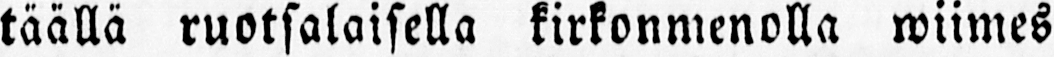täällä ruotsalaisella kirkonmenolla wiimes
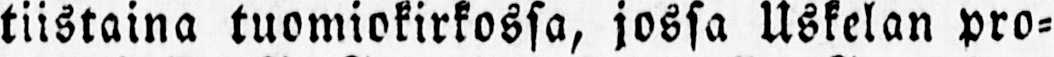tiistaina tuomiokirkossa, jossa Uskelan pro-
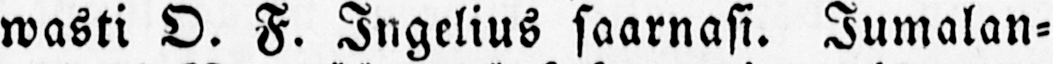wasti O. F. Ingelius saarnasi. Jumalan-
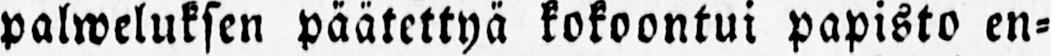palweluksen päätettyä kokoontui papisto en-
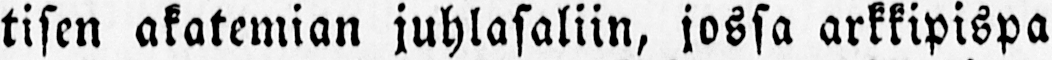tisen akatemian juhlasaliin, jossa arkkipispa
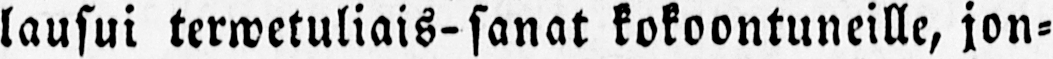lausui terwetuliais-sanat kokoontuneille, jon-
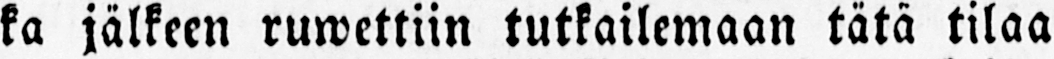ka jälkeen ruwettiin tutkailemaan tätä tilaa
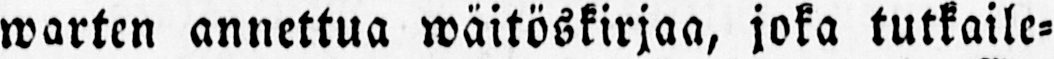warten annettua wäitöskirjaa, joka tutkaile-
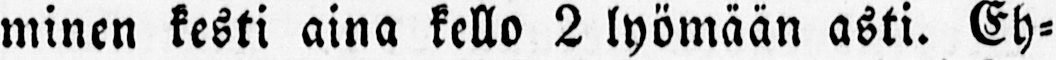minen kesti aina kello 2 lyömään asti. Eh-
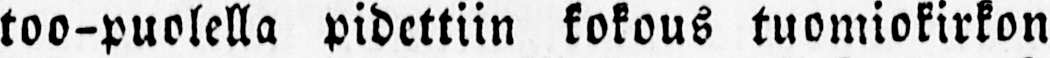too-puolella pidettiin kokous tuomiokirkon
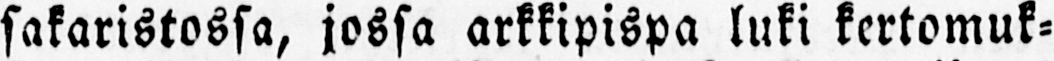sakaristossa, jossa arkkipispa luki kertomuk-
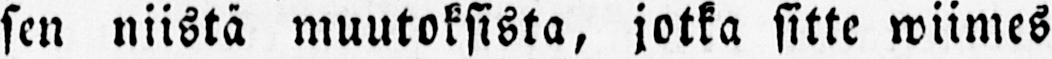sen niistä muutoksista, jotka sitte wiimes
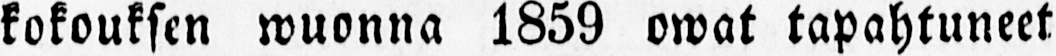kokouksen wuonna 1859 owat tapahtuneet
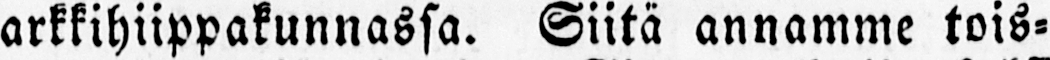arkkihiippakunnassa. Siitä annamme tois-
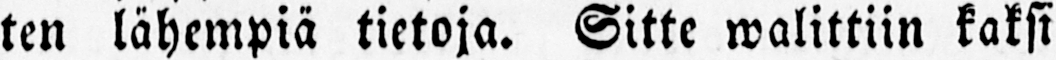ten lähempiä tietoja. Sitte walittiin kaksi
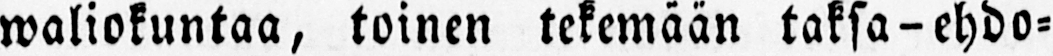waliokuntaa, toinen tekemään taksa - ehdo-
